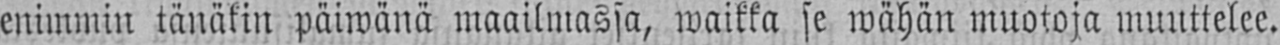enimmin tänäkin päiwänä maailmassa, waikka se wähän muotoja muuttelee.
